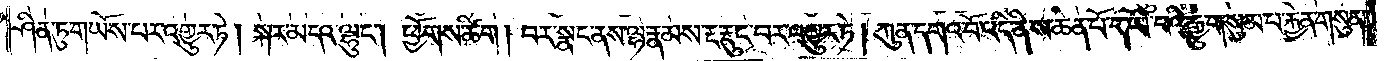ཤིན་ཏུ་གཡོས་པར་འགྱུར་ཏེ། སྐར་མདའ་ལྷུང༌། ཕྱོགས་ཚིག །བར་སྣང་ནས་ལྷ་རྣམས་རྔ་རྡུང་བར་འགྱུར་ཏེ། ཀུན་དགའ་བོ་འདི་ནི་ས་ཆེན་པོ་གཡོ་བའི་རྒྱུ་གསུམ་པ་རྐྱེན་གསུམ་
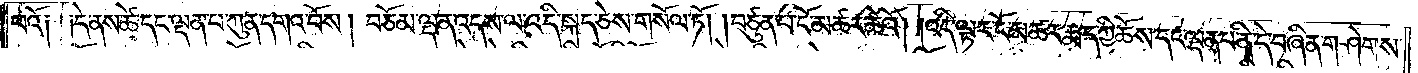པའོ༑ །དེ་ནས་ཚེ་དང་ལྡན་པ་ཀུན་དགའ་བོས། བཅོམ་ལྡན་འདས་ལ་འདི་སྐད་ཅེས་གསོལ་ཏོ། །བཙུན་པ་ངོ་མཚར་ཆེའོ། །འདི་ལྟར་ངོ་མཚར་རྨད་ཀྱི་ཆོས་དང་ལྡན་པ་ནི་དེ་བཞིན་གཤེགས་
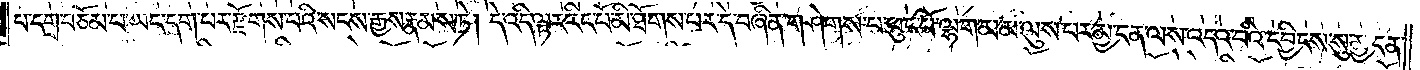པ་དགྲ་བཅོམ་པ་ཡང་དག་པར་རྫོགས་པའི་སངས་རྒྱས་རྣམས་ཏེ། དེ་འདི་ལྟར་རིང་པོ་མི་ཐོགས་པར་དེ་བཞིན་གཤེགས་པ་ཕུང་པོ་ལྷག་མ་མ་ལུས་པར་མྱ་ངན་ལས་འདའ་བའི་དབྱིངས་སུ་མྱ་ངན་
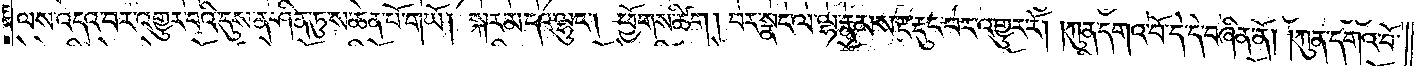ལས་འདའ་བར་འགྱུར་བའི་དུས་ན་ཤིན་ཏུ་ས་ཆེན་པོ་གཡོ། སྐར་མདའ་ལྷུང༌། ཕྱོགས་ཚིག །བར་སྣང་ལ་ལྷ་རྣམས་རྔ་རྡུང་བར་འགྱུར་རོ། །ཀུན་དགའ་བོ་དེ་དེ་བཞིན་ནོ། །ཀུན་དགའ་བོ་
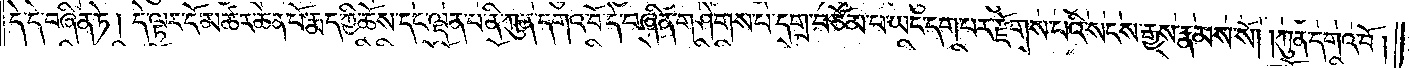དེ་དེ་བཞིན་ཏེ། དེ་ལྟར་ངོ་མཚར་ཆེན་པོ་རྨད་ཀྱི་ཆོས་དང་ལྡན་པ་ནི་ཀུན་དགའ་བོ་དེ་བཞིན་གཤེགས་པ་དགྲ་བཅོམ་པ་ཡང་དག་པར་རྫོགས་པའི་སངས་རྒྱས་རྣམས་སོ། །ཀུན་དགའ་བོ།
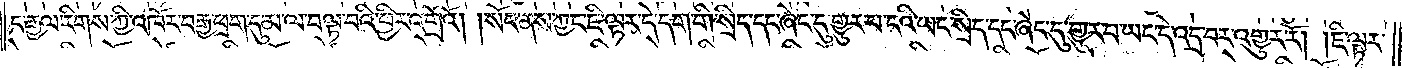ང་རྒྱལ་རིགས་ཀྱི་འཁོར་བརྒྱ་ཕྲག་དུ་མ་ལ་བལྟ་བའི་ཕྱིར་འགྲོའོ། །སོང་ནས་ཀྱང་ཇི་ལྟར་དེ་དག་གི་སྲིད་དང་ཞེང་དུ་གྱུར་པ་ངའི་ཡང་སྲིད་དང་ཞེང་དུ་གྱུར་པ་ཡང་དེ་འདྲ་བར་འགྱུར་རོ། །ཇི་ལྟར་
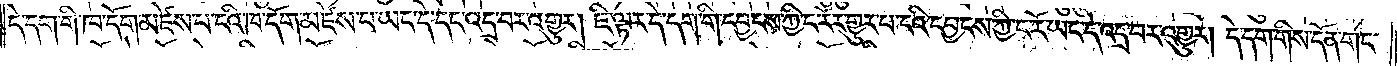དེ་དག་གི་ཁ་དོག་མཛེས་པ་ངའི་ཁ་དོག་མཛེས་པ་ཡང་དེ་དང་འདྲ་བར་འགྱུར། ཇི་ལྟར་དེ་དག་གི་དབྱངས་ཀྱི་ང་རོར་གྱུར་པ་ངའི་དབྱངས་ཀྱི་ང་རོ་ཡང་དེ་འདྲ་བར་འགྱུར། དེ་དག་གིས་དོན་གང་
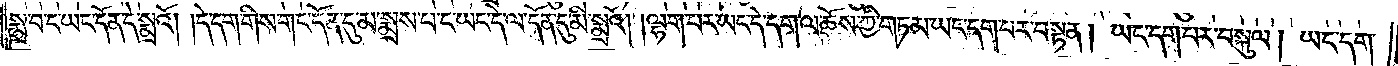སྨྲ་བ་ང་ཡང་དོན་དེ་སྨྲའོ། །དེ་དག་གིས་གང་དོན་དུ་མ་སྨྲས་པ་ང་ཡང་དེ་ལ་དོན་དུ་མི་སྨྲའོ། །ལྷག་པར་ཡང་དེ་དག་ལ་ཆོས་ཀྱི་གཏམ་ཡང་དག་པར་བསྟན། ཡང་དག་པར་བསྐུལ། ཡང་དག་
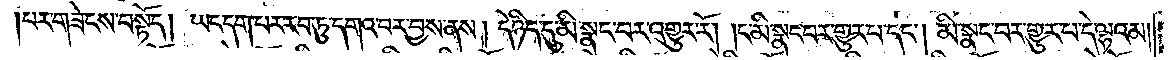པར་གཟེངས་བསྟོད། །ཡང་དག་པར་རབ་ཏུ་དགའ་བར་བྱས་ནས། དེ་ཉིད་དུ་མི་སྣང་བར་འགྱུར་རོ། །ང་མི་སྣང་བར་གྱུར་པ་དང༌། མི་སྣང་བར་གྱུར་པ་དེ་ལྷའམ།
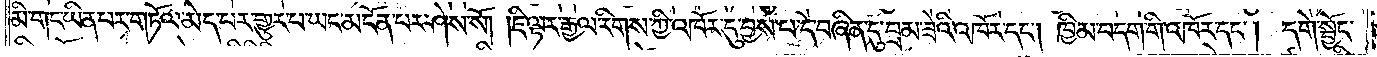མི་གང་ཡིན་པར་གཏོལ་མེད་པར་གྱུར་པ་ཡང་མངོན་པར་ཤེས་སོ། །ཇི་ལྟར་རྒྱལ་རིགས་ཀྱི་འཁོར་དུ་བྱས་པ་དེ་བཞིན་དུ་བྲམ་ཟེའི་འཁོར་དང༌། ཁྱིམ་བདག་གི་འཁོར་དང༌། དགེ་སྦྱོང་
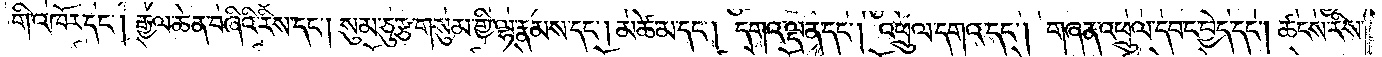གི་འཁོར་དང༌། རྒྱལ་ཆེན་བཞིའི་རིས་དང༌། སུམ་ཅུ་རྩ་གསུམ་གྱི་ལྷ་རྣམས་དང༌། མཚེ་མ་དང༌། དགའ་ལྡན་དང༌། འཕྲུལ་དགའ་དང༌། གཞན་འཕྲུལ་དབང་བྱེད་དང༌། ཚངས་རིས་
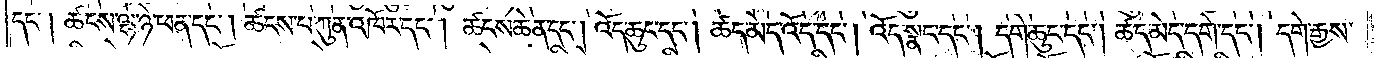དང༌། ཚངས་ལྷ་ཉེ་ཕན་དང༌། ཚངས་པ་ཀུན་འཁོར་དང༌། ཚངས་ཆེན་དང༌། འོད་ཆུང་དང༌། ཚད་མེད་འོད་དང༌། འོད་སྣང་དང༌། དགེ་ཆུང་དང༌། ཚད་མེད་དགེ་དང༌། དགེ་རྒྱས་
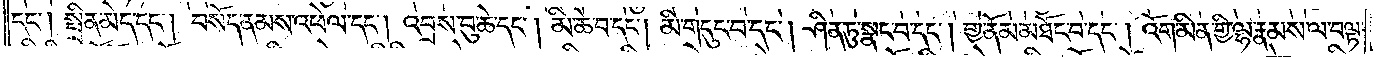དང༌། སྤྲིན་མེད་དང༌། བསོད་ནམས་འཕེལ་དང༌། འབྲས་བུ་ཆེ་དང༌། མི་ཆེ་བ་དང༌། མི་གདུང་བ་དང༌། ཤིན་ཏུ་སྣང་བ་དང༌། གྱ་ནོམ་མཐོང་བ་དང༌། འོག་མིན་གྱི་ལྷ་རྣམས་ལ་བལྟ་
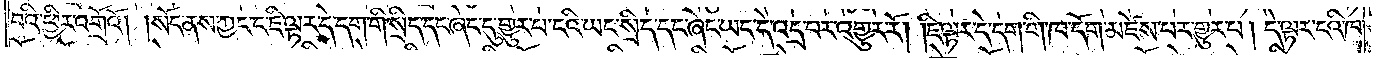བའི་ཕྱིར་འགྲོའོ། །སོང་ནས་ཀྱང་ང་ཇི་ལྟར་དེ་དག་གི་སྲིད་དང་ཞེང་དུ་གྱུར་པ་ངའི་ཡང་སྲིད་དང་ཞེང་ཡང་དེ་འདྲ་བར་འགྱུར་རོ། །ཇི་ལྟར་དེ་དག་གི་ཁ་དོག་མཛེས་པར་གྱུར་པ། དེ་ལྟར་ངའི་ཁ་
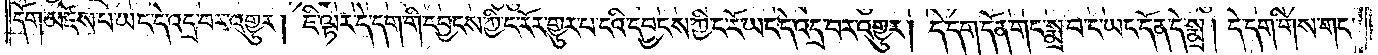དོག་མཛེས་པ་ཡང་དེ་འདྲ་བར་འགྱུར། ཇི་ལྟར་དེ་དག་གི་དབྱངས་ཀྱི་ང་རོར་གྱུར་པ་ངའི་དབྱངས་ཀྱི་ང་རོ་ཡང་དེ་འདྲ་བར་འགྱུར། དེ་དག་དོན་གང་སྨྲ་བ་ང་ཡང་དོན་དེ་སྨྲ། དེ་དག་གིས་གང་
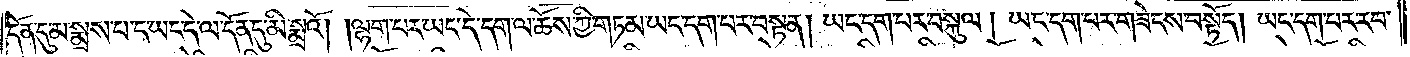དོན་དུ་མ་སྨྲས་པ་ང་ཡང་དེ་ལ་དོན་དུ་མི་སྨྲའོ། །ལྷག་པར་ཡང་དེ་དག་ལ་ཆོས་ཀྱི་གཏམ་ཡང་དག་པར་བསྟན། ཡང་དག་པར་བསྐུལ། ཡང་དག་པར་གཟེངས་བསྟོད། ཡང་དག་པར་རབ་
